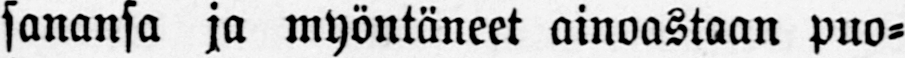sanansa ja myöntäneet ainoastaan puo-
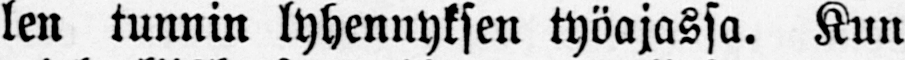len tunnin lyhennyksen työajassa. Kun
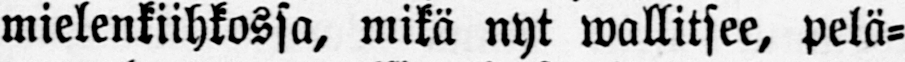mielenkiihkossa, mikä nyt wallitsee, pelä-
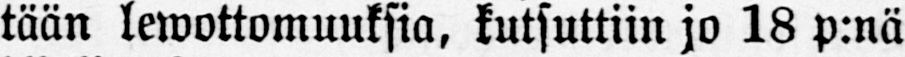tään lewottomuuksia, kutsuttiin jo 18 p:nä
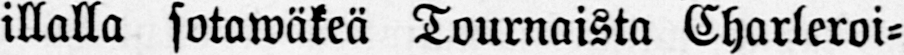illalla sotawäkeä Tournaista Charleroi-
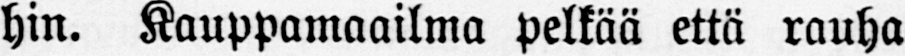hin. Kauppamaailma pelkää että rauha
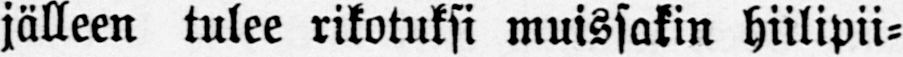jälleen tulee rikotuksi muissakin hiilipii-
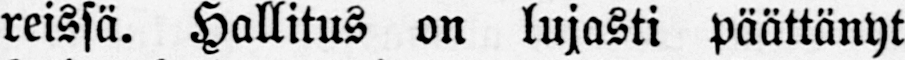reissä. Hallitus on lujasti päättänyt
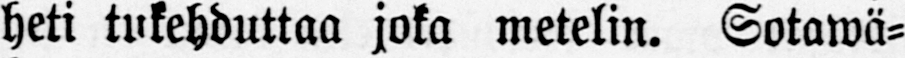heti tukehduttaa joka metelin. Sotawä-
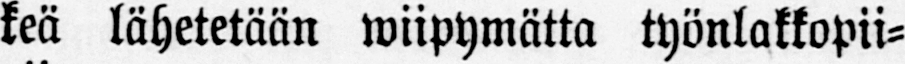keä lähetetään wiipymätta työnlakkopii-
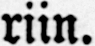riin.
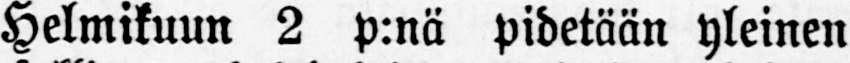Helmikuun 2 p:nä pidetään yleinen
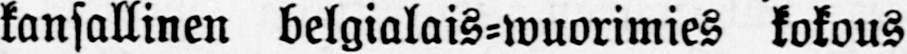kansallinen belgialais-wuorimies kokous
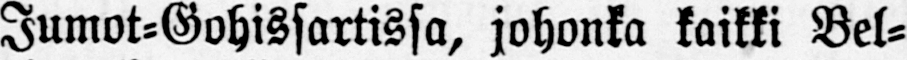Jumot-Gohissartissa, johonka kaikki Bel-
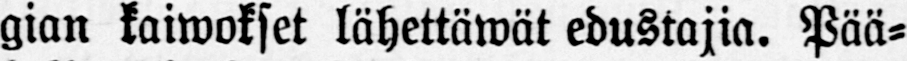gian kaiwokset lähettäwät edustajia. Pää-
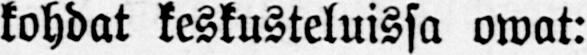kohdat keskusteluissa owat:
